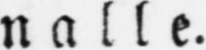nalle.
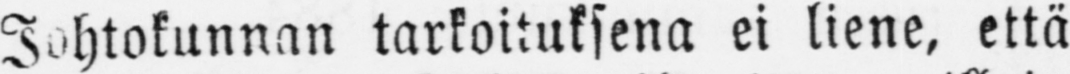Johtokunnan tarkoituksena ei liene, että
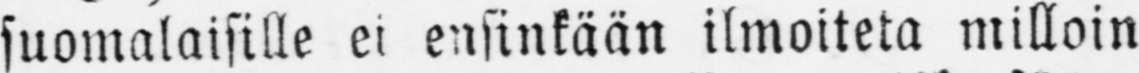suomalaisille ei ensinkään ilmoiteta milloin
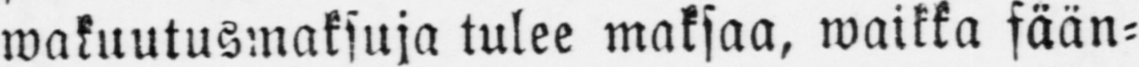wakuutusmaksuja tulee maksaa, waikka sään-
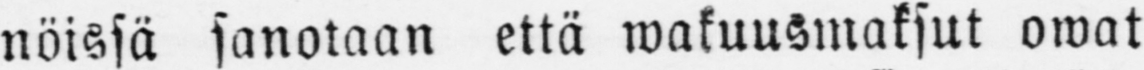nöissä sanotaan että makuusmaksut owat
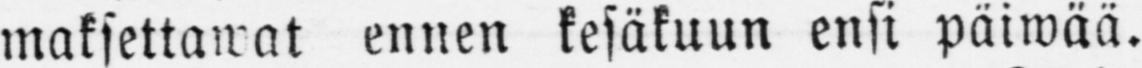maksettawat ennen kesäkuun ensi päiwää.
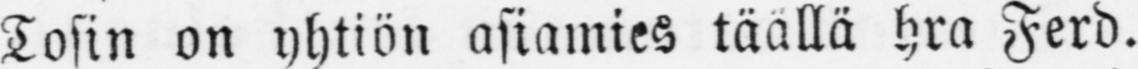Tosin on yhtiön asiamies täällä hra Ferd.
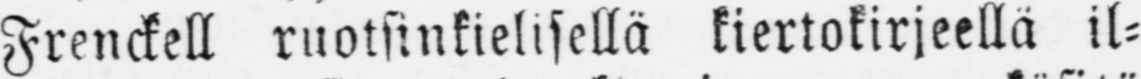Frenckell ruotsinkielisellä kiertokirjeellä il-
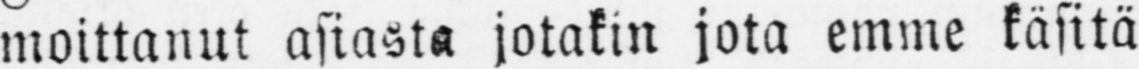moittanut asiasta jotakin jota emme käsitä
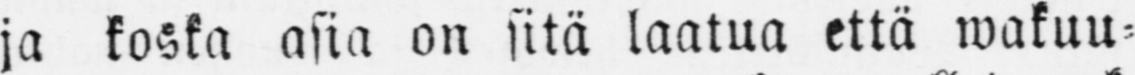ja koska asia on sitä laatua että wakuu-
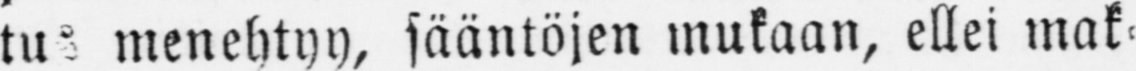tus menehtyy, sääntöjen mukaan, ellei mak-
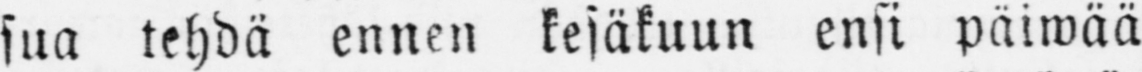sua tehdä ennen kesäkuun ensi päiwää
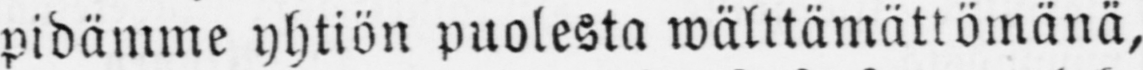pidämme yhtiön puolesta wälttämättömänä,
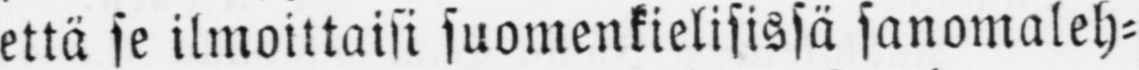että se ilmoittaisi suomenkielisissä sanomaleh-
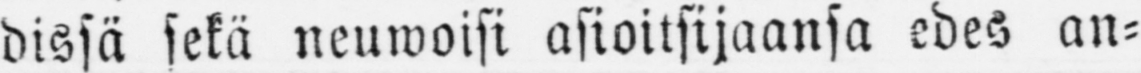dissä sekä neuwoisi asioitsijaansa edes an-
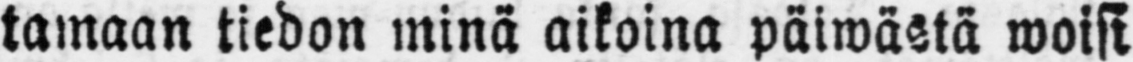tamaan tiedon minä aikoina päiwästä woisi
